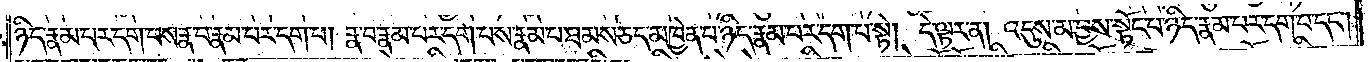ཉིད་རྣམ་པར་དག་པས་རྣ་བ་རྣམ་པར་དག་པ། རྣ་བ་རྣམ་པར་དག་པས་རྣམ་པ་ཐམས་ཅད་མཁྱེན་པ་ཉིད་རྣམ་པར་དག་པ་སྟེ། དེ་ལྟར་ན། འདུས་མ་བྱས་སྟོང་པ་ཉིད་རྣམ་པར་དག་པ་དང༌།
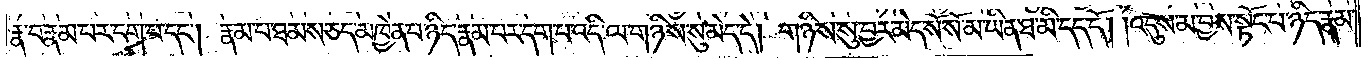རྣ་བ་རྣམ་པར་དག་པ་དང༌། རྣམ་པ་ཐམས་ཅད་མཁྱེན་པ་ཉིད་རྣམ་པར་དག་པ་འདི་ལ་གཉིས་སུ་མེད་དེ། གཉིས་སུ་བྱར་མེད་སོ་སོ་མ་ཡིན་ཐ་མི་དད་དོ། །འདུས་མ་བྱས་སྟོང་པ་ཉིད་རྣམ་
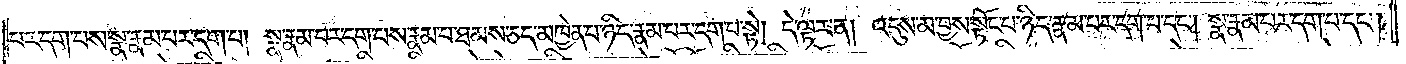པར་དག་པས་སྣ་རྣམ་པར་དག་པ། སྣ་རྣམ་པར་དག་པས་རྣམ་པ་ཐམས་ཅད་མཁྱེན་པ་ཉིད་རྣམ་པར་དག་པ་སྟེ། དེ་ལྟར་ན། འདུས་མ་བྱས་སྟོང་པ་ཉིད་རྣམ་པར་དག་པ་དང༌། སྣ་རྣམ་པར་དག་པ་དང༌།
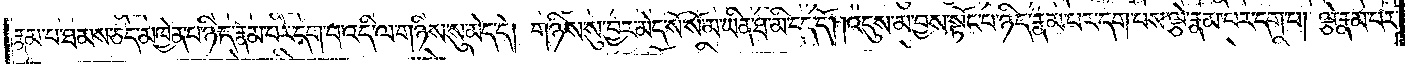རྣམ་པ་ཐམས་ཅད་མཁྱེན་པ་ཉིད་རྣམ་པར་དག་པ་འདི་ལ་གཉིས་སུ་མེད་དེ། གཉིས་སུ་བྱར་མེད་སོ་སོ་མ་ཡིན་ཐ་མི་དད་དོ། །འདུས་མ་བྱས་སྟོང་པ་ཉིད་རྣམ་པར་དག་པས་ལྕེ་རྣམ་པར་དག་པ། ལྕེ་རྣམ་པར་
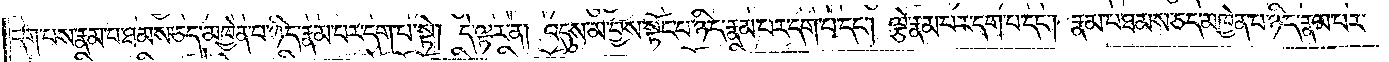དག་པས་རྣམ་པ་ཐམས་ཅད་མཁྱེན་པ་ཉིད་རྣམ་པར་དག་པ་སྟེ། དེ་ལྟར་ན། འདུས་མ་བྱས་སྟོང་པ་ཉིད་རྣམ་པར་དག་པ་དང༌། ལྕེ་རྣམ་པར་དག་པ་དང༌། རྣམ་པ་ཐམས་ཅད་མཁྱེན་པ་ཉིད་རྣམ་པར་
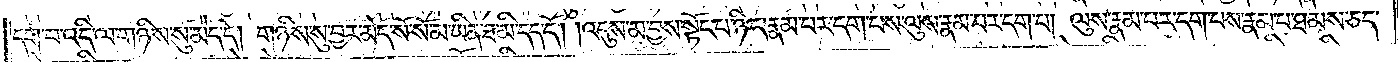དག་པ་འདི་ལ་གཉིས་སུ་མེད་དེ། གཉིས་སུ་བྱར་མེད་སོ་སོ་མ་ཡིན་ཐ་མི་དད་དོ། །འདུས་མ་བྱས་སྟོང་པ་ཉིད་རྣམ་པར་དག་པས་ལུས་རྣམ་པར་དག་པ། ལུས་རྣམ་པར་དག་པས་རྣམ་པ་ཐམས་ཅད་
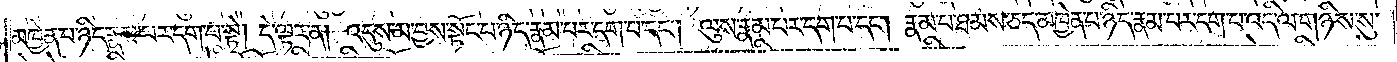མཁྱེན་པ་ཉིད་རྣམ་པར་དག་པ་སྟེ། དེ་ལྟར་ན། འདུས་མ་བྱས་སྟོང་པ་ཉིད་རྣམ་པར་དག་པ་དང༌། ལུས་རྣམ་པར་དག་པ་དང༌། རྣམ་པ་ཐམས་ཅད་མཁྱེན་པ་ཉིད་རྣམ་པར་དག་པ་འདི་ལ་གཉིས་སུ་
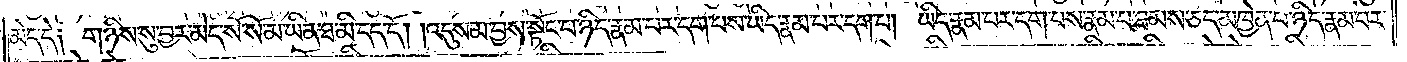མེད་དེ༑ གཉིས་སུ་བྱར་མེད་སོ་སོ་མ་ཡིན་ཐ་མི་དད་དོ། །འདུས་མ་བྱས་སྟོང་པ་ཉིད་རྣམ་པར་དག་པས་ཡིད་རྣམ་པར་དག་པ། ཡིད་རྣམ་པར་དག་པས་རྣམ་པ་ཐམས་ཅད་མཁྱེན་པ་ཉིད་རྣམ་པར་
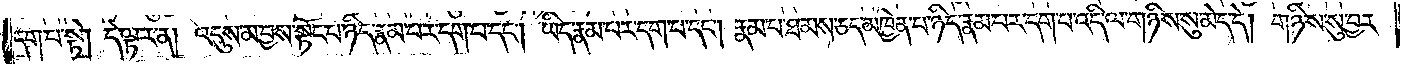དག་པ་སྟེ། དེ་ལྟར་ན། འདུས་མ་བྱས་སྟོང་པ་ཉིད་རྣམ་པར་དག་པ་དང༌། ཡིད་རྣམ་པར་དག་པ་དང༌། རྣམ་པ་ཐམས་ཅད་མཁྱེན་པ་ཉིད་རྣམ་པར་དག་པ་འདི་ལ་གཉིས་སུ་མེད་དེ། གཉིས་སུ་བྱར་
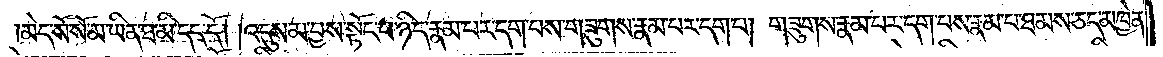མེད་སོ་སོ་མ་ཡིན་ཐ་མི་དད་དོ། །འདུས་མ་བྱས་སྟོང་པ་ཉིད་རྣམ་པར་དག་པས་གཟུགས་རྣམ་པར་དག་པ། གཟུགས་རྣམ་པར་དག་པས་རྣམ་པ་ཐམས་ཅད་མཁྱེན་
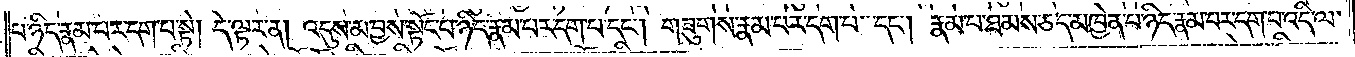པ་ཉིད་རྣམ་པར་དག་པ་སྟེ། དེ་ལྟར་ན། འདུས་མ་བྱས་སྟོང་པ་ཉིད་རྣམ་པར་དག་པ་དང༌། གཟུགས་རྣམ་པར་དག་པ་དང༌། རྣམ་པ་ཐམས་ཅད་མཁྱེན་པ་ཉིད་རྣམ་པར་དག་པ་འདི་ལ་
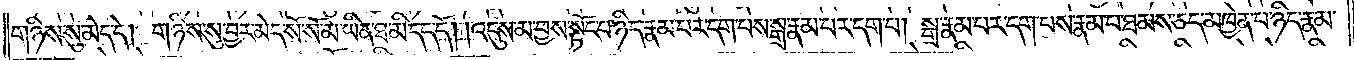གཉིས་སུ་མེད་དེ། གཉིས་སུ་བྱར་མེད་སོ་སོ་མ་ཡིན་ཐ་མི་དད་དོ། །འདུས་མ་བྱས་སྟོང་པ་ཉིད་རྣམ་པར་དག་པས་སྒྲ་རྣམ་པར་དག་པ། སྒྲ་རྣམ་པར་དག་པས་རྣམ་པ་ཐམས་ཅད་མཁྱེན་པ་ཉིད་རྣམ་
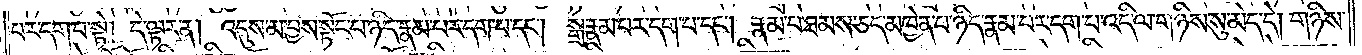པར་དག་པ་སྟེ། དེ་ལྟར་ན། འདུས་མ་བྱས་སྟོང་པ་ཉིད་རྣམ་པར་དག་པ་དང༌། སྒྲ་རྣམ་པར་དག་པ་དང༌། རྣམ་པ་ཐམས་ཅད་མཁྱེན་པ་ཉིད་རྣམ་པར་དག་པ་འདི་ལ་གཉིས་སུ་མེད་དེ། གཉིས་
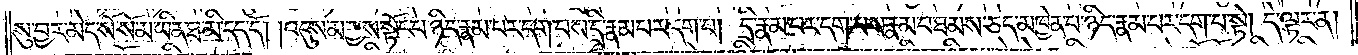སུ་བྱར་མེད་སོ་སོ་མ་ཡིན་ཐ་དད་དོ། །འདུས་མ་བྱས་སྟོང་པ་ཉིད་རྣམ་པར་དག་པས་དྲི་རྣམ་པར་དག་པ། དྲི་རྣམ་པར་དག་པས་རྣམ་པ་ཐམས་ཅད་མཁྱེན་པ་ཉིད་རྣམ་པར་དག་པ་སྟེ། དེ་ལྟར་ན།
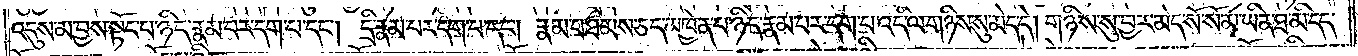འདུས་མ་བྱས་སྟོང་པ་ཉིད་རྣམ་པར་དག་པ་དང༌། དྲི་རྣམ་པར་དག་པ་དང༌། རྣམ་པ་ཐམས་ཅད་མཁྱེན་པ་ཉིད་རྣམ་པར་དག་པ་འདི་ལ་གཉིས་སུ་མེད་དེ། གཉིས་སུ་བྱར་མེད་སོ་སོ་མ་ཡིན་ཐ་མི་དད་
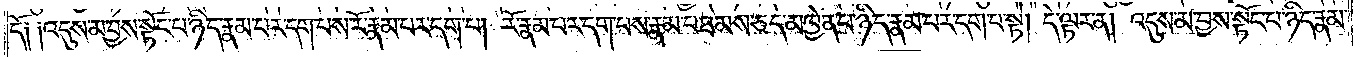དོ༑ ༑འདུས་མ་བྱས་སྟོང་པ་ཉིད་རྣམ་པར་དག་པས་རོ་རྣམ་པར་དག་པ། རོ་རྣམ་པར་དག་པས་རྣམ་པ་ཐམས་ཅད་མཁྱེན་པ་ཉིད་རྣམ་པར་དག་པ་སྟེ། དེ་ལྟར་ན། འདུས་མ་བྱས་སྟོང་པ་ཉིད་རྣམ་
